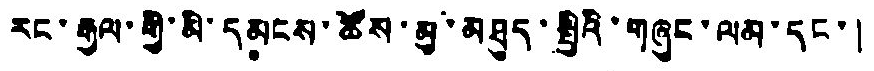རང་རྒྱལ་གྱི་མི་དམངས་ཚོས་མུ་མཐུད་སྤྱིའི་གཞུང་ལམ་དང་།
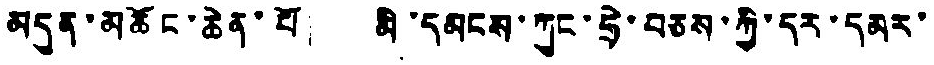མདུན་མཚོང་ཆེན་པོ། མི་དམངས་ཀུང་ཧྲེ་བཅས་ཀྱི་དར་དམར་
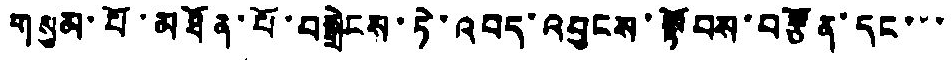གསུམ་པོ་མཐོན་པོ་བསྒྲེངས་ཏེ་འབད་འབྱངས་སྟོབས་བརྩོན་དང་་་
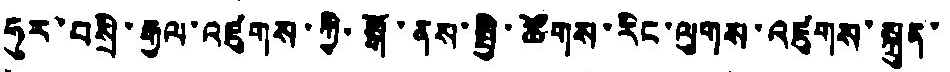ཧུར་བསྲི་རྒྱལ་འཛུགས་ཀྱི་སྒོ་ནས་སྤྱི་ཚོགས་རིང་ལུགས་འཛུགས་སྐྲུན་
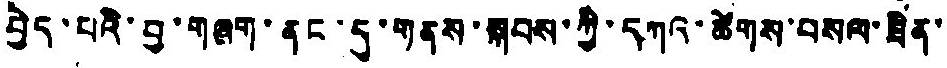བྱེད་པའི་བྱ་གཞག་ནང་དུ་གནས་སྐབས་ཀྱི་དཀའ་ཚེགས་བསལ་ཟིན་
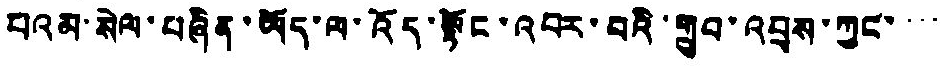པའམ་སེལ་བཞིན་ཡོད་ལ་འོད་སྟོང་འབར་བའི་གྲུབ་འབྲས་ཀྱང་་་་
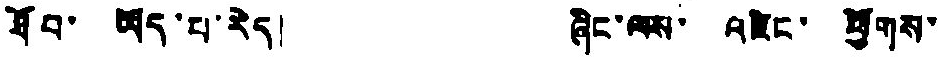ཐོབ་ ཡོད་པ་རེད། ཞིང་ལས་ འཛིང་ ཕྱོགས་
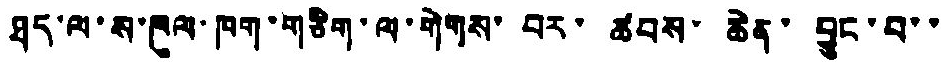ཐད་ལ་ས་ཁུལ་ཁག་གཅིག་ལ་གེགས་བར་ཚབས་ཆེན་ བྱུང་བ་་
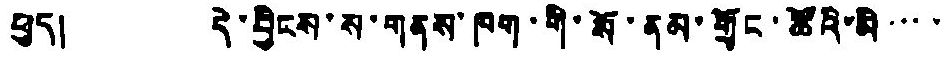ཕུད། དེ་བྱིངས་ས་གནས་ཁག་གི་སོ་ནམ་གྲོང་ཚོའི་མི་་་་
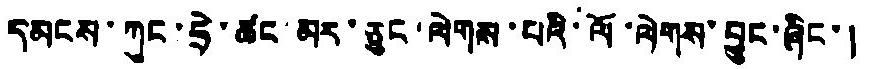དམངས་ཀུང་ཧྲེ་ཚང་མར་ཅུང་ལེགས་པའི་ལོ་ལེགས་བྱུང་ཞིང་།
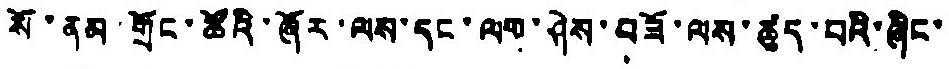སོ་ནམ་གྲོང་ཚོའི་ཞོར་ལས་དང་ལག་ཤེས་བཟོ་ལས་ཚུད་པའི་ཞིང་
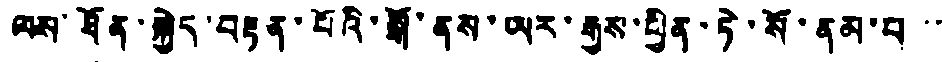ལས་ཐོན་སྐྱེད་བརྟན་པོའི་སྒོ་ནས་ཡར་རྒྱས་ཕྱིན་ཏེ་སོ་ནམ་པ་་་
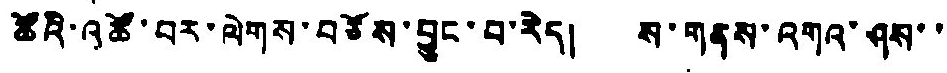ཚོའི་འཚོ་བར་ལེགས་བཅོས་བྱུང་བ་རེད། ས་གནས་འགའ་ཤས་་
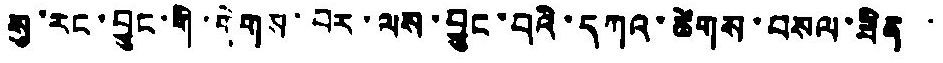སུ་རང་བྱུང་གི་གེགས་བར་ལས་བྱུང་བའི་དཀའ་ཚེགས་བསལ་ཟིན་
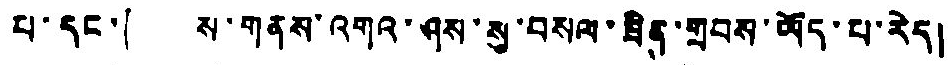པ་དང་། ས་གནས་འགའ་ཤས་སུ་བསལ་ཟིན་གྲབས་ཡོད་པ་རེད།
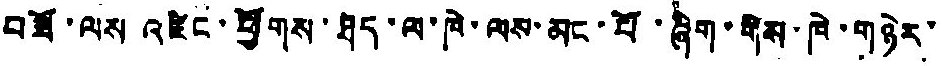བཟོ་ལས འཛིང་ཕྱོགས་ཐད་ལ་ཁེ་ལས་མང་པོ་ཞིག་གིས་ཁེ་གཉེར་
